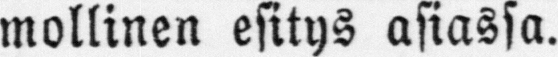mollinen esitys asiassa.
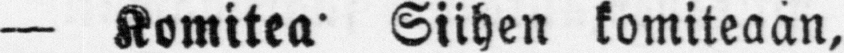— Komitea Siihen komiteaan,
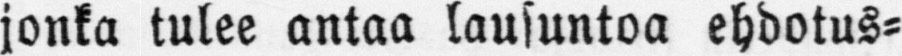jonka tulee antaa lausuntoa ehdotus-
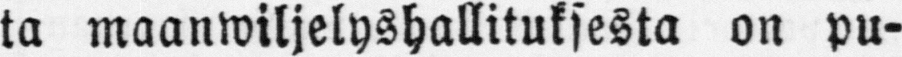ta maanwiljelyshallituksesta on pu-
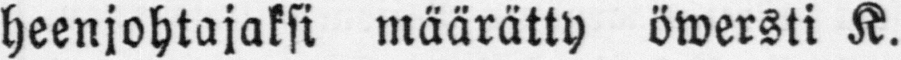heenjohtajaksi määrätty öwersti K.
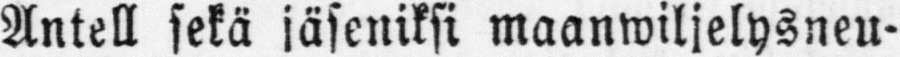Antell sekä jäseniksi maanwiljelysneu-
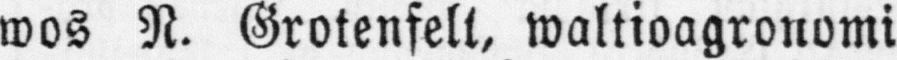wos N. Grotenfelt, waltioagronomi
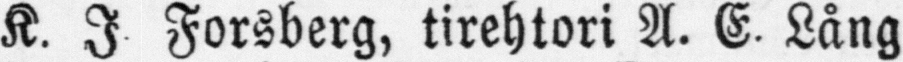K. J. Forsberg, tirehtori A. E Lång
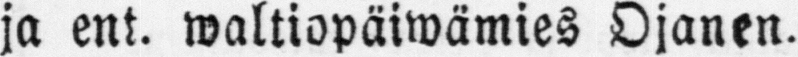ja ent. waltiopäiwämies Ojanen.
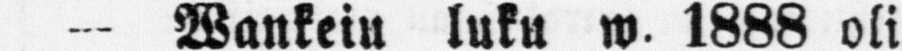— Wankeiu luku w. 1888 oli
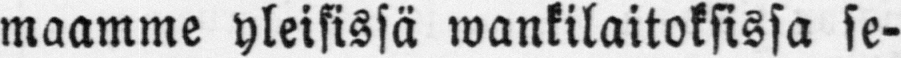maamme yleisissä wankilaitoksissa se-
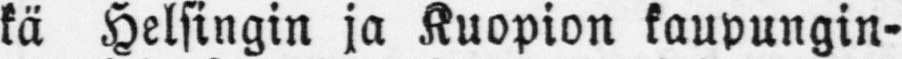kä Helsingin ja Kuopion kaupungin-
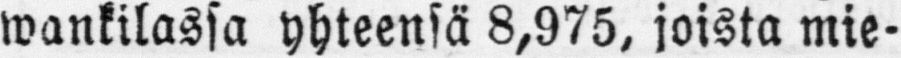wankilassa yhteensä 8,975, joista mie-
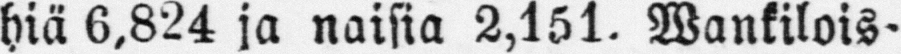hiä 6,824 ja naisia 2,151. Wankilois-
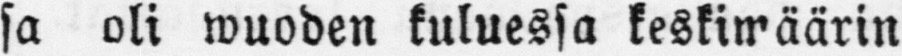sa oli wuoden kuluessa keskimäärin
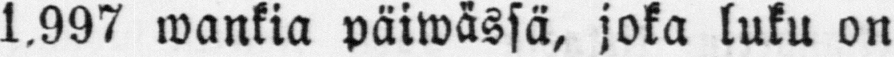1,997 wankia päiwässä, joka luku on
